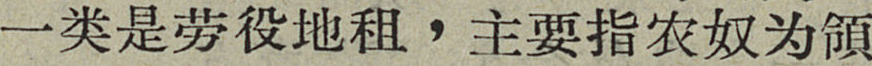一类是劳役地租，主要指农奴为領
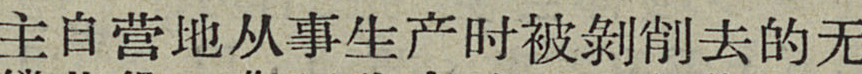主自营地从事生产时被剝削去的无
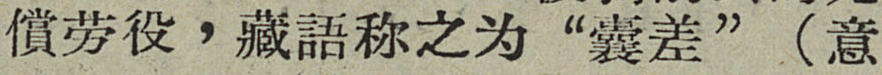償劳役，藏語称之为“囊差”（意
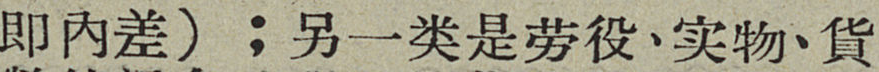即内差）；另一类是劳役、实物、貨
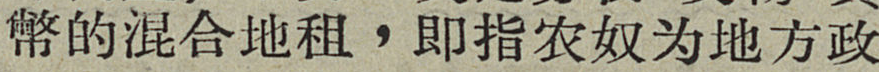幣的混合地租，即指农奴为地方政
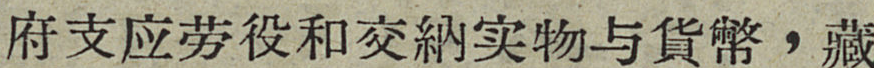府支应劳役和交納实物与貨幣，藏
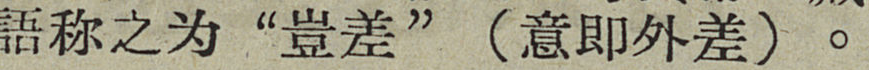語称之为“豈差”（意即外差）。
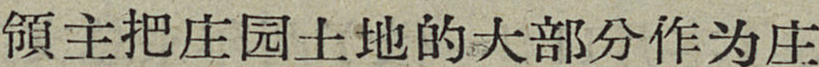領主把庄园土地的大部分作为庄
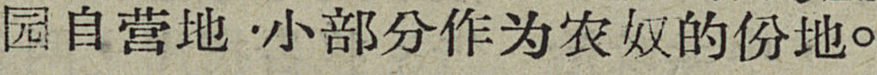园自营地，小部分作为农奴的份地。
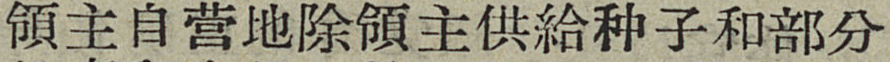領主自营地除領主供給种子和部分
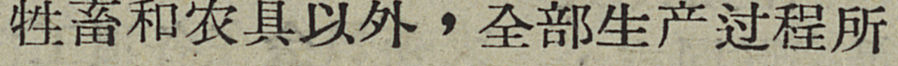牲畜和农具以外，全部生产过程所
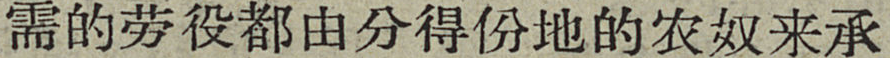需的劳役都由分得份地的农奴来承
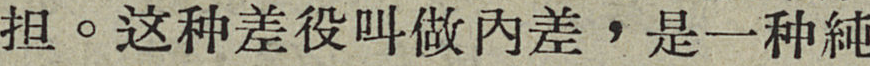担。这种差役叫做内差，是一种純
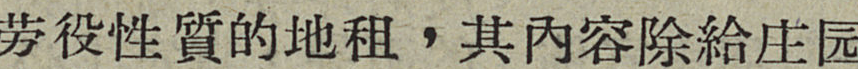劳役性質的地租，其内容除給庄园
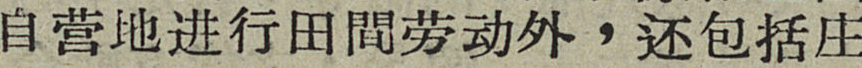自营地进行田間劳动外，还包括庄
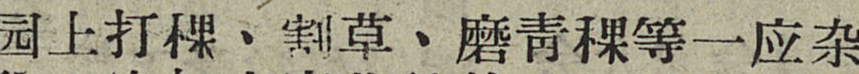园上打稞、割草、磨靑稞等一应杂
